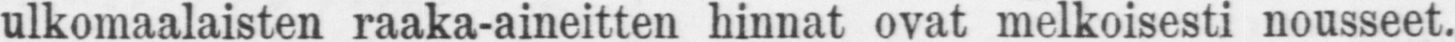ulkomaalaisten raaka-aineitten hinnat ovat melkoisesti nousseet.
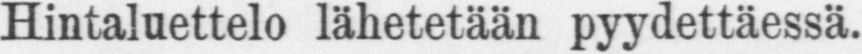Hintaluettelo lähetetään pyydettäessä,
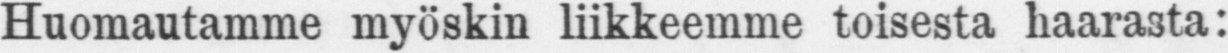Huomautamme myöskin liikkeemme toisesta haarasta:
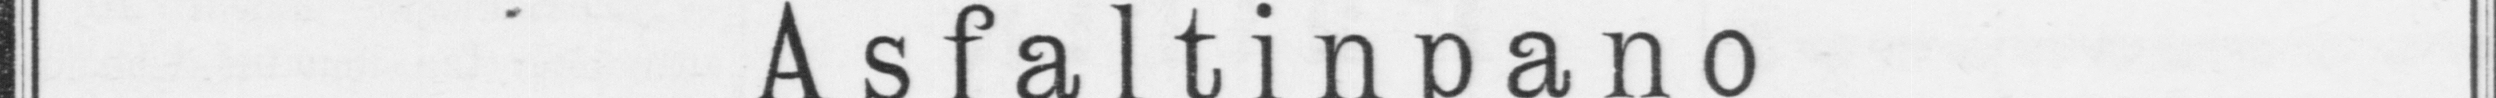Asfaltinpano
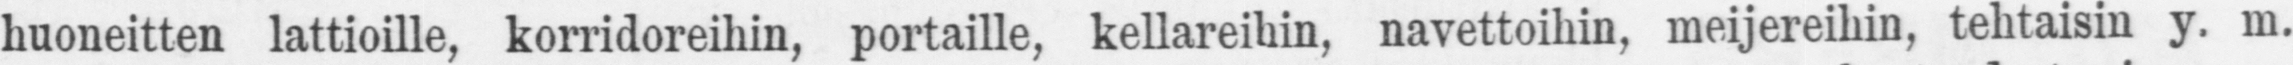huoneitten lattioille, korridoreihin, portaille, kellareihin, navettoihin, meijereihin, tehtaisin y. m.
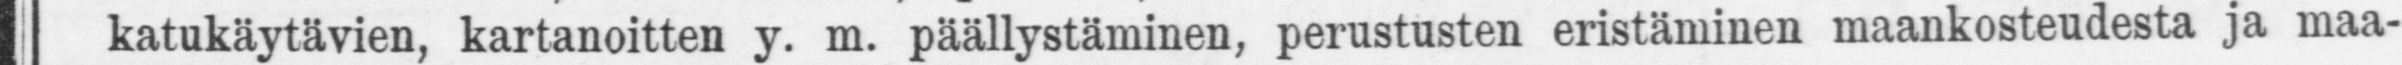katukyätävien, kartanoitten y. m. päällystäminen, perustusten eristäminen maankosteudesta ja maa-
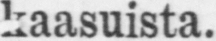kaasuista.
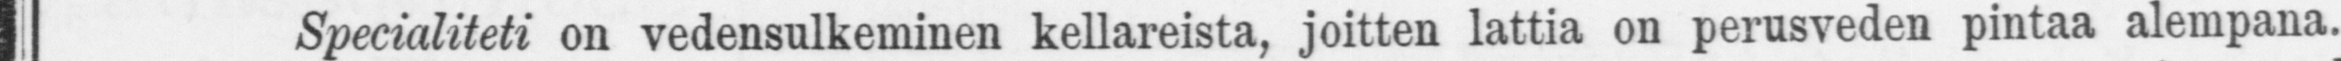Specialiteti on vedensulkeminen kellareista, joitten lattia on perusveden pintaa alempana.
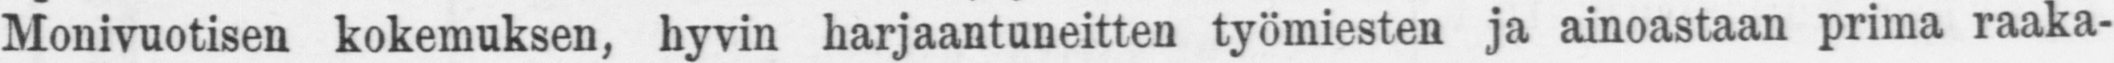Monivuotisen kokemuksen, hyvin harjaantuneitten työmiesten ja ainoastaan prima raaka-
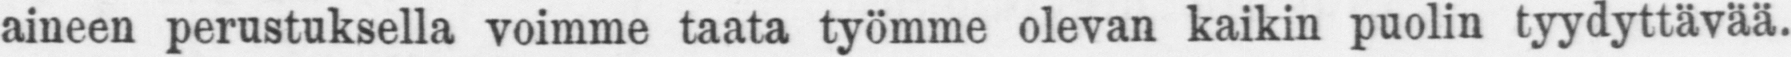aineen perustuksella voimme taata työmme olevan kaikin puolin tyydyttävää.
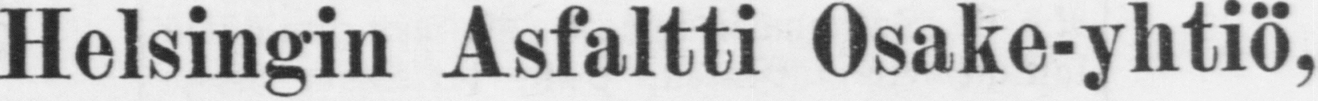Helsingin Asfaltti Osake-yhtiö,
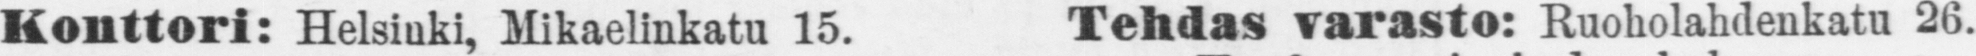Konttori: Helsiuki, Mikaelinkatu 15. Tehadas varasto: Ruoholahdenkatu 26.
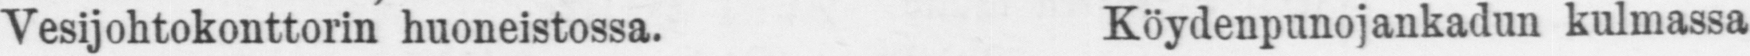Vesijohtokonttorin huoneistossa. Köydenpunojankadun kulmassa
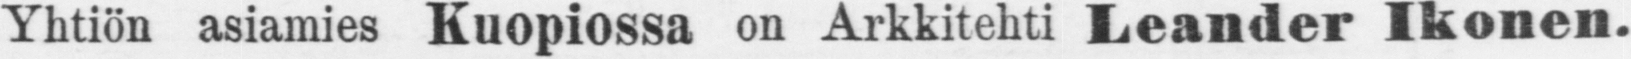Yhtiön asiamies Kuopiossa on Arkkitehti Leander Ikonen.
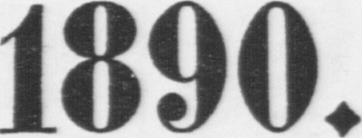1890.
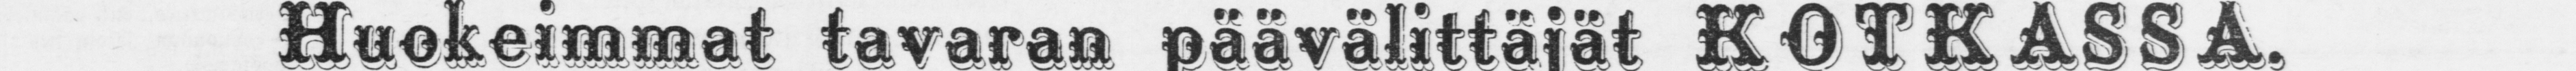Huokeimmat tavaran päävälittäjät KOTKASSA.
